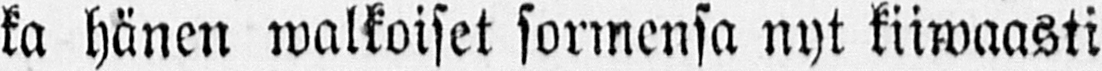ka hänen walkoiset sormensa nyt kiiwaasti
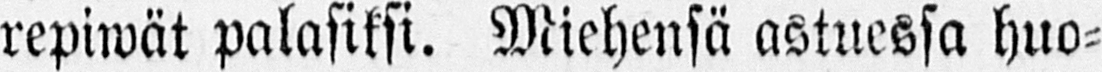repiwät palasiksi. Miehensä astuessa huo-
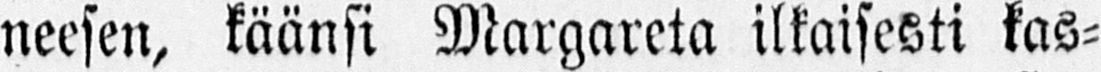neesen, käänsi Margareta ilkaisesti kas-
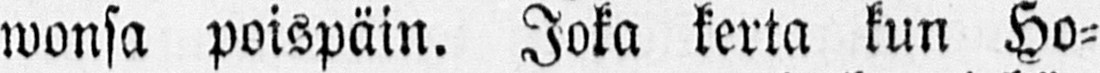wonsa poispäin. Joka kerta kun Ho-
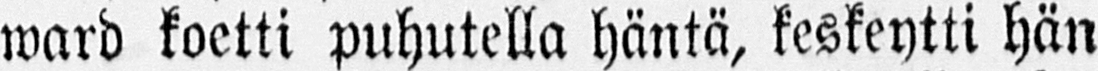ward koetti puhutella häntä, keskeytti hän
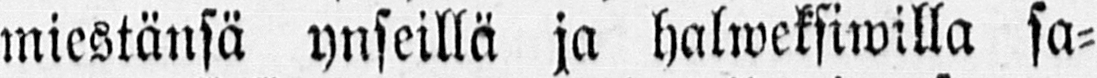miestänsä ynseillä ja halweksiwilla sa-
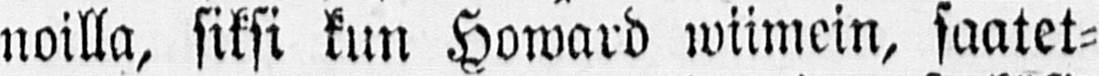noilla, siksi kun Howard wiimein, saatet-
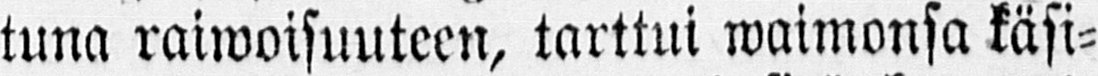tuna raiwoisuuteen, tarttui waimonsa käsi-
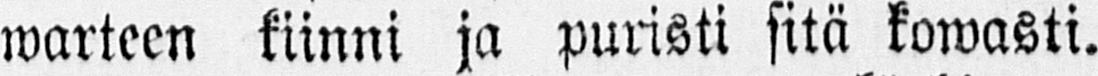warteen kiinni ja puristi sitä kowasti
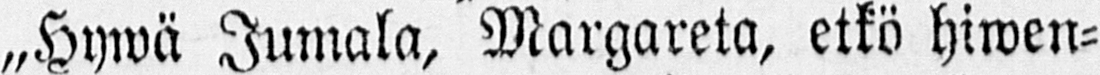„Hywä Jumala, Margareta, etkö hiwen-
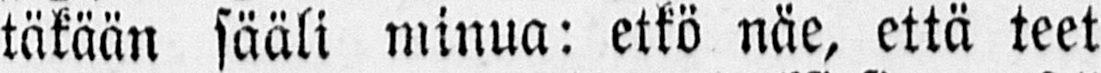täkään sääli minua: etkö näe, että teet
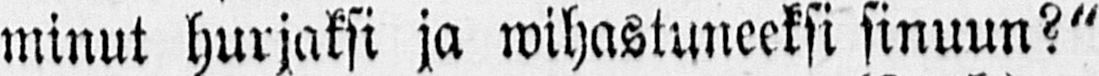minut hurjaksi ja wihastuneeksi sinuun?"
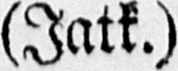(Jatk.)
